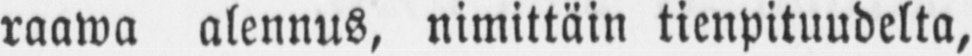raawa alennus, nimittäin tienpituudelta,
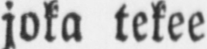joka tekee
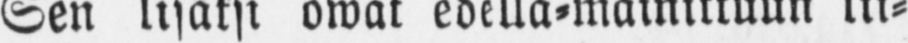Sen lisäksi owat edellä-mainittuun lii-
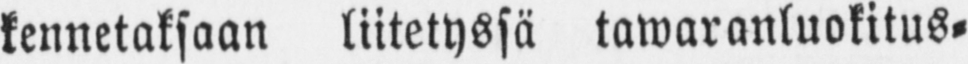kennetaksaan liitetyssä tawaranluokitus-
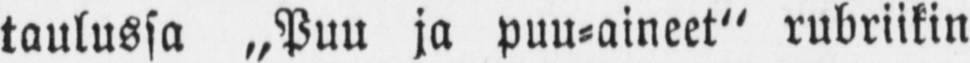taulussa „Puu ja puu-aineet" rubriikin
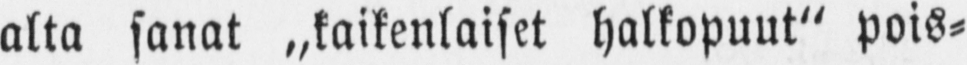alta sanat „Kaikenlaiset halkopuut" pois-
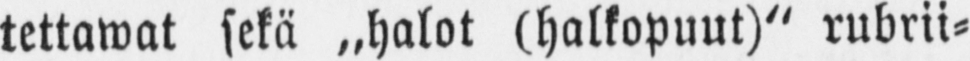tettawat sekä „halot (halkopuut)" rubrii-
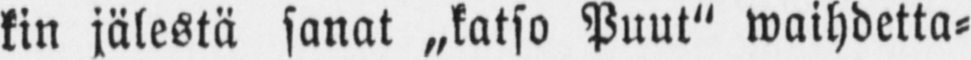kin jälestä sanat „katso Puut" waihdetta-
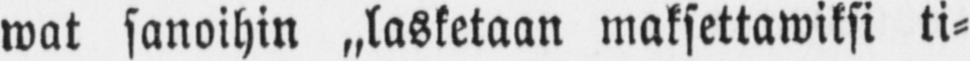wat sanoihin „lasketaan maksettawiksi ti-
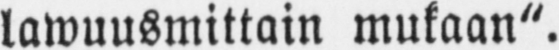lawuusmittain mukaan".
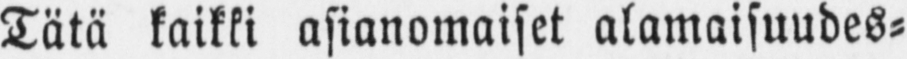Tätä kaikki asianomaiset alamaisuudes-
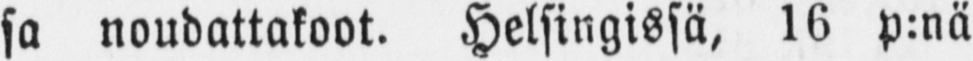sa noudattakoot. Helsingissä, 16 p:nä
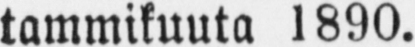tammikuuta 1890.
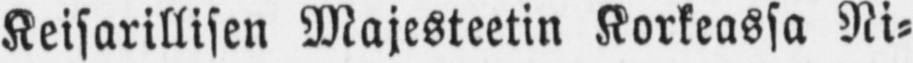Keisarillisen Majesteetin Korkeassa Ni-
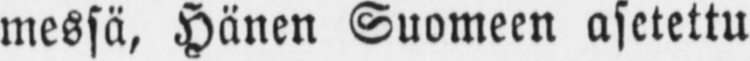messä, Hänen Suomeen asetettu
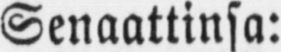Senaattinsa:
